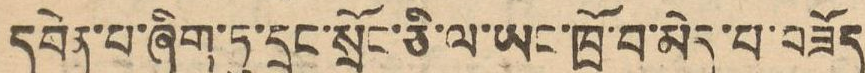དབེན་པ་ཞིག་ཏུ་དྲང་སྲོང་ཅི་ལ་ཡང་ཁྲོ་བ་མེད་བཟོད
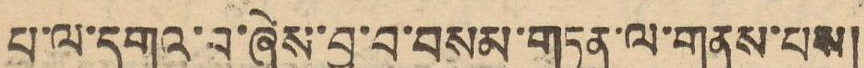པ་ལ་དགའ་བ་ཞེས་བྱ་བ་བསམ་གཏན་ལ་གནས་པས།
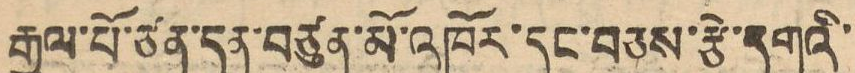རྒྱལ་པོ་ཙན་དན་བཙུན་མོ་འཁོར་དང་བཅས་རྩེ་དགའི་
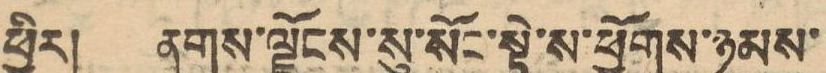ཕྱིར། ནགས་ལྗོངས་སུ་སོང་སྟེ་ས་ཕྱོགས་ཉམས་
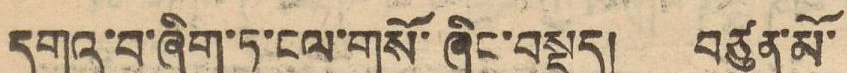དགའ་བ་ཞིག་ཏུ་ངལ་གསོ་ཞིང་བསྡད། བཙུན་མོ་
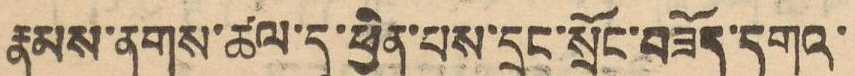རྣམས་ནགས་ཚལ་དུ་ཕྱིན་པས་དྲག་སྲོང་བཟོད་དགའ་
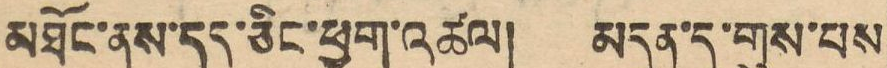མཐོང་ན་དད་ཅིང་ཕྱག་འཚལ། མདུན་དུ་གུས་པས་
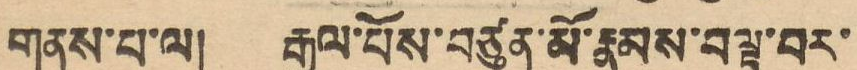གནས་པ་ལ། རྒྱལ་པོས་བཙུན་མོ་རྣམས་བལྟ་བར་
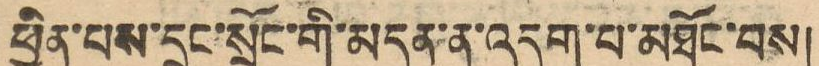ཕྱིན་པས་དྲང་སྲོང་གི་མདུན་ན་འདུག་པ་མཐོང་བས།
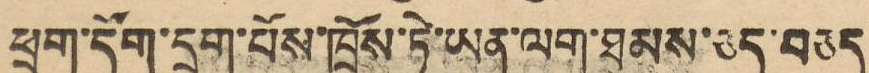ཕྲག་དོག་དྲག་པོས་ཁྲོས་ཏེ་ཡན་ལག་ཐམས་ཅད་བཅད་
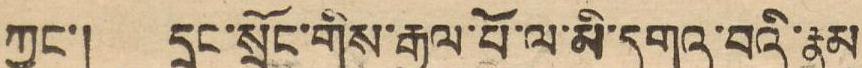ཀྱང་། དྲང་སྲོང་གིས་རྒྱལ་པོ་ལ་མི་དགའ་བའི་རྣམ
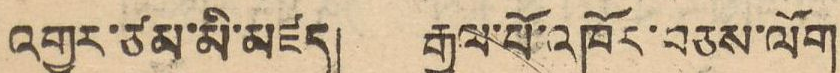འགྱུར་ཙམ་མི་མཛད། རྒྱལ་པོ་འཁོར་བཅས་ལོག
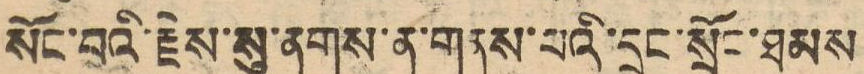སོང་བའི་རྗེས་སུ་ནགས་ན་གནས་པའི་དྲང་སྲོང་ཐམས
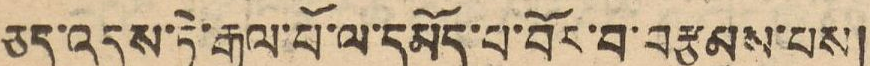ཅད་འདུས་ཏེ་རྒྱལ་པོ་ལ་དམོད་པ་བོར་བ་བརྩམས་པས།
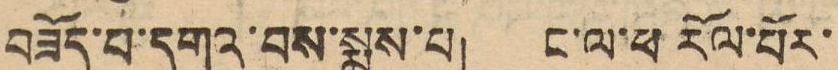བཟོད་པ་དགའ་བས་སྨྲས་པ། ང་ལ་ཕ་ རོལ་པོར་
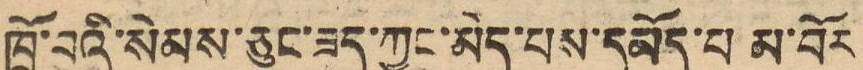ཁྲོ་བའི་སེམས་ཅུང་ཟད་ཀྱང་མེད་པས་དམོད་པ མ་བོར
